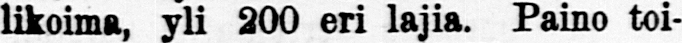likoima, yli 200 eri lajia. Paino toi-
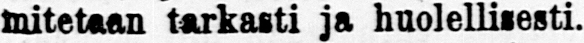mitetaan tarkasti ja huolellisesti.
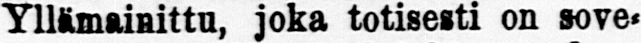Yllämainittu, joka totisesti on sove-
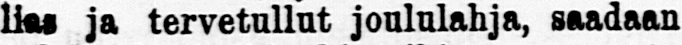lias ja tervetullut joululahja, saadaan
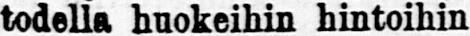todella huokeihin hintoihin
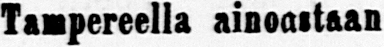Tampereella ainoastaan
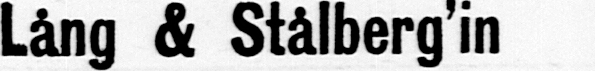Lång & Stålberg'in
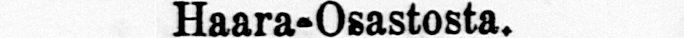Haara - Osastosta.
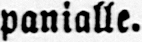panialle.
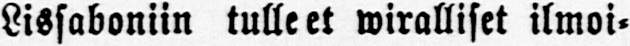Lissaboniin tulleet wiralliset ilmoi-
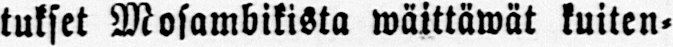tukset Mosambikista wäittäwät kuiten-
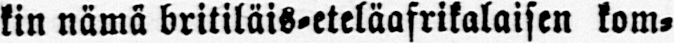kin nämä britiläis-eteläafrikalaisen kom-
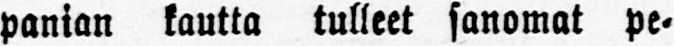panian kautta tulleet sanomat pe-
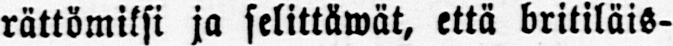rättömiksi ja selittäwät, että britiläis-
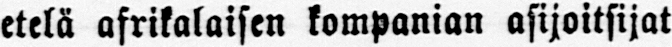etelä afrikalaisen kampanian asijoitsijat
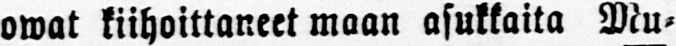owat kiihoittaneet maan asukkaita Mu-
